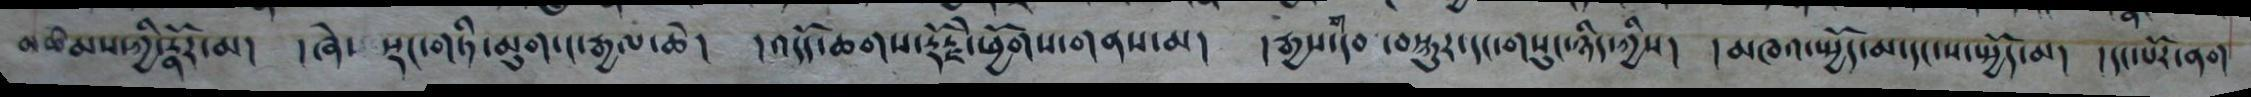མཚམས་ཀྱི་རྣོར་མ། །ཞེ་ སྡང་གཏི་མུག་ང་རྒྱལ་ཆེ། །འདོད་ཆགས་རྡོརྗེ་ཕྱོགས་གནས་མ། །རྒྱས་དབ་བསྐུར་དང་གསུང་ཉིད་ཀྱིས། །མཁའ་སྤྱོད་མ་དང་ས་སྤྱོད་མ། །དང་པོར་ནག
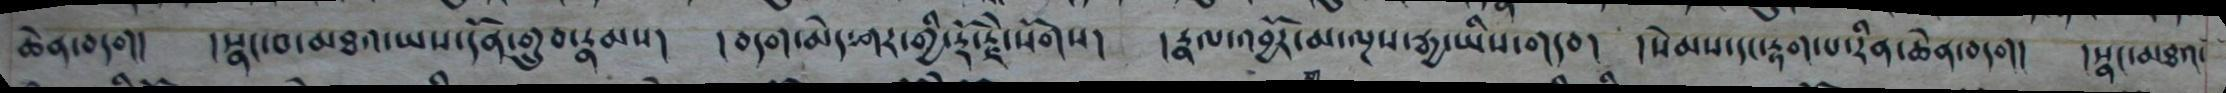ཆེན་བདག། །སྣང་བ་མཐའ་ཡས་དོན་གྲུབ་རྣམས། །བདག་མེད་ཤར་གྱི་རྡོ་རྗེ་སོགས། །རྣལ་འབྱོར་མ་ལྔས་རྒྱ་ཡིས་གདབ། །སེམས་དང་རྟག་པ་རིན་ཆེན་བདག། །སྣང་མཐའ་
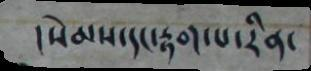།སེམས་དང་རྟག་པ་རིན་
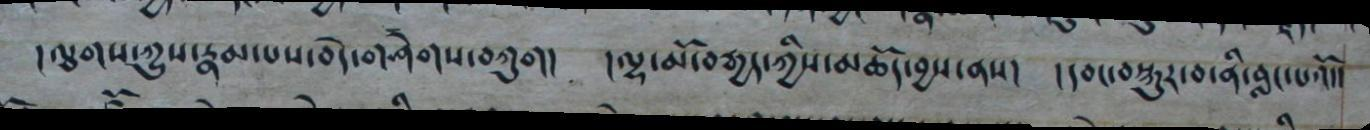།ལྕགས་ཀྱུས་རྣམ་པས་བདེ་གཤེགས་བཀུག། །ལྷ་མོ་བརྒྱད་ཀྱིས་མཆོད་བྱས་ནས། །དབང་བསྐུར་བ་ནི་བླང་པའོ།།
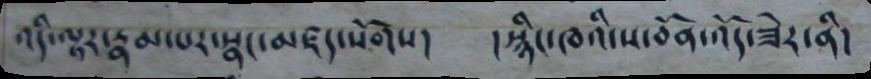འདི་ལྟར་རྣམ་པར་སྣང་མཛད་སོགས། །སྙིང་ཁའི་ས་བོན་འོད་ཟེར་ནི།
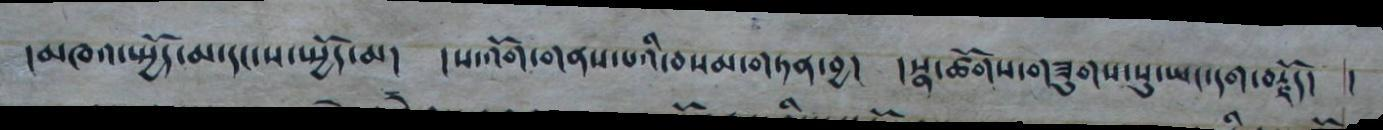མཁའ་སྤྱོད་མ་དང་ས་སྤྱོད་མ། །ས་འོག་གནས་པའི་བསམ་གཏན་བྱ། །སྣ་ཚོགས་གཟུགས་སུ་ཡང་དག་བརྗོད། །
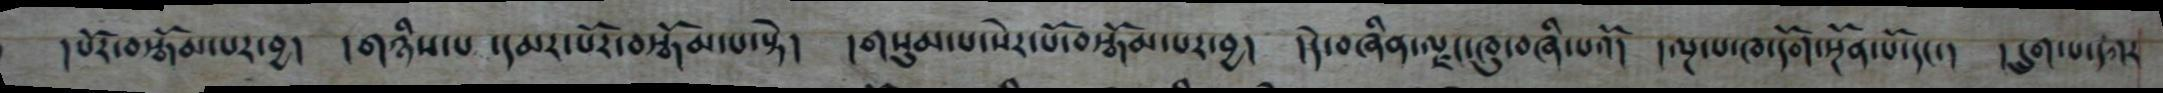།པོར་བསྒོམས་པར་བྱ། །གཉིས་པ ་དམར་པོར་བསྒོམ་པ་སྟེ། །གསུམ་པ་སེར་པོ་བསྒོམ་པར་བྱ། །དེ་བཞིན་ལྗང་ཁུ་བཞི་པའོ། །ལྔ་པ་ཁ་དོག་སྔོན་པོ་དང་། །དྲུག་པ་དཀར
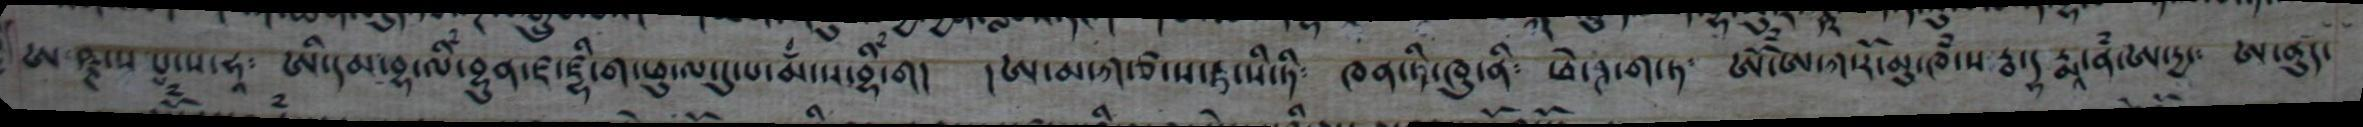ཨ ཥྚ་ས པ་ས་ཧཱ༴ ཨི་དམ་བྷ་ལི་བྷུན་ཛ་དྷི་ག་ཕུ་ལ་དུ་པ་མྃ་ས་བྷི་ག། །ཨ་མ་ཀ་ཙ་ས་ཏ་སི་ཏི༴ ཁན་ཏི་ཁུ་ནི༴ ཕེ་ཊ་ག་ཏ༴ ཨོཾ་ཨ་ཀ་རོ་མུ་ཁཾ་ས རྦ་དྷརྨཱ་ནཾ་ཨ་དྱ་༴ ཨ་ནུད་
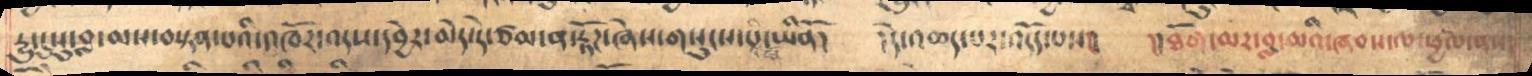རྱུ་དུསུ་བླ་མས་བསྟན་པའི་འཁོར་འདས་དབྱེར་མེད་དེ་ཙམ་ན་རྟོཌ་ཞེས་གསུངས་པ་ཡིནོ། །དེ་འཆད་པར་འདོད་པས། །ཐོག་མར་བླ་མའི་ཞབས་ལ་ཕྱལ་ནས
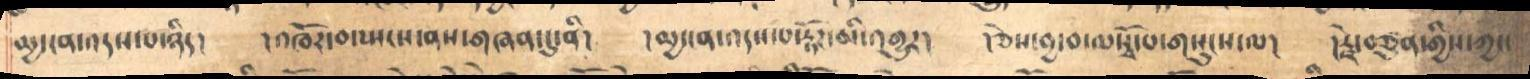མྱ་ངན་འདས་པ་ཉིད། །འཁོར་བ་སྤངས་ནས་གཞན་དུ་ནི། །མྱ་ངན་འདས་པ་རྟོཌ་མི་འགྱུར། །ཅེས་བྱ་བ་ལསྭོ་པ་གསུངས་ལ། །རྗེ་བཙུན་གྱིས་ཀྱང་
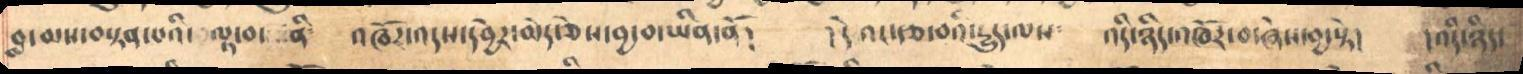བླ་མས་བསྟན་པའི་བལྟ་བ་ ནི་ འཁོར་དབྱེར་མེད་ཅེས་བྱ་བ་ཡིན་ནོ། །དེ་འང་རྩ་བའི་རྒྱུད་ལས༴ འདི་ཉིད་འཁོར་བ་ཞེས་བྱ་སྟེ། །འདི་ཉིད་
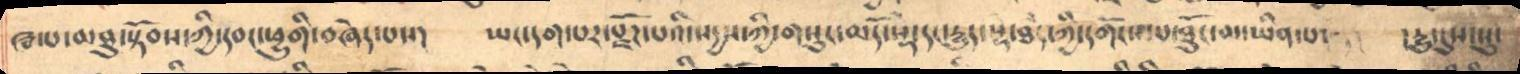ཝ་པ་མཐུ་སྟོབས་ཀྱི་དབང་ཕྱུགི་བཞེདཔས། །ཡང་དག་པར་སྫོཌ་པའི་སདྱས་ཀྱི་གསུཌ་མདོ་སྡེ་དང་རྱུད་སྡེ་ཐཾད་ཀྱི་དགོཌ་པ་ཐོུང་བ་ཡིན་པ་  །རྱུ་དུས་སུ་
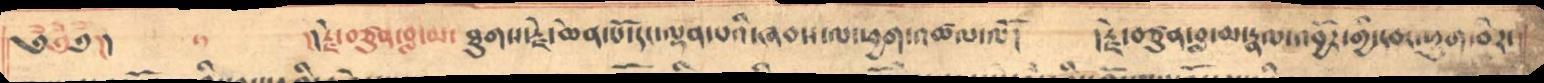༄༅༅།། །།རྗེ་བཙུན་བླ་མ་ཐུགས་རྗེ་ཆེན་པོ་དང་ལྡན་པའི་ཞབས་ལ་ཕྱག་འཚལ་ལོ། །རྗེ་བཙུན་བླ་མ་རྣལ་འབྱོར་གྱི་དབང་ཕྱུག་བེར་
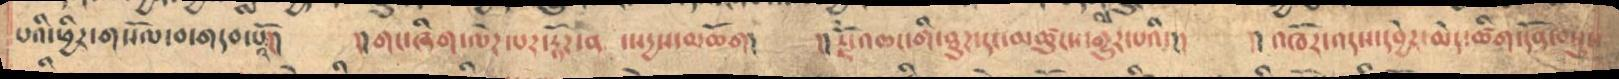པའི་ཕྱིར་གསོལ་བ་གདབ་པའོ།།   །། གང་ཞིག་ལེཌ་པར་རྟོཌ་ན  ་སདྱས་མཆོག།།   །།རྡེེ་འཆང་གི་ཐུཌ་དང་མཚུངས་གྱུར་པའི་།།   ། འཁོར་འདས་དབྱེར་མེད་ཚིག་དོན་བསྡུས
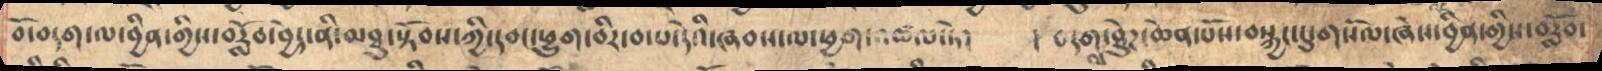བོ་བདག་ལ་བྱིན་གྱིས་བརློབ་བྱེད་ནི་མཐུ་སྟོབས་ཀྱི་དབང་ཕྱུག་བིར་བ་པ་དེའི་ཞབས་ལ་ཕྱག་འཚལ་ཏེ།    ། བདག་ལ་ཐེུཌ་ཆེན་པོས་བསྐྱང་དུ་གསོལ་ཞེས་བྱིན་གྱིས་བརློབ་
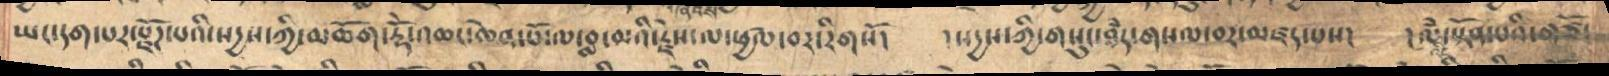ཡང་དག་པར་སྫོཌ་པའི་སདྱས་ཀྱི་མཆོག་རྡོེ་འཆང་ཆེན་པོ་ལ་བླ་མའི་རྗེས་ལ་ཕྱལ་བར་རིགསོ།   །སདྱས་གྱི་གསུང་ཐཾད་གསལ་བར་མཛད་པས།   །ལཾ་སྟོན་པའི་གཙོ་་
